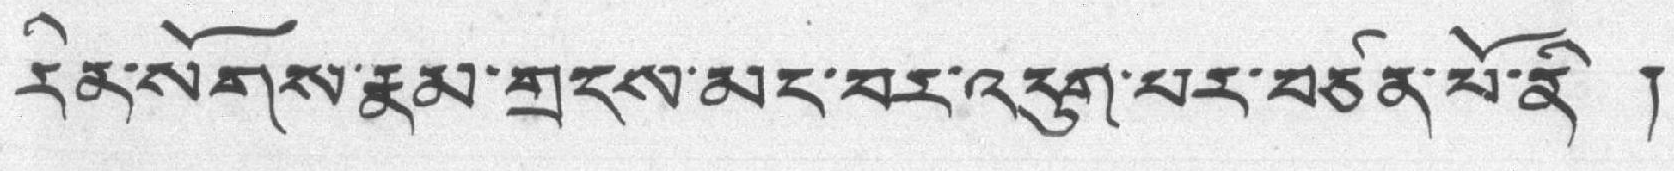རིན་སོགས་རྣམ་གྲངས་མང་བར་འདུག་པར་བཙན་པོ་ནི །
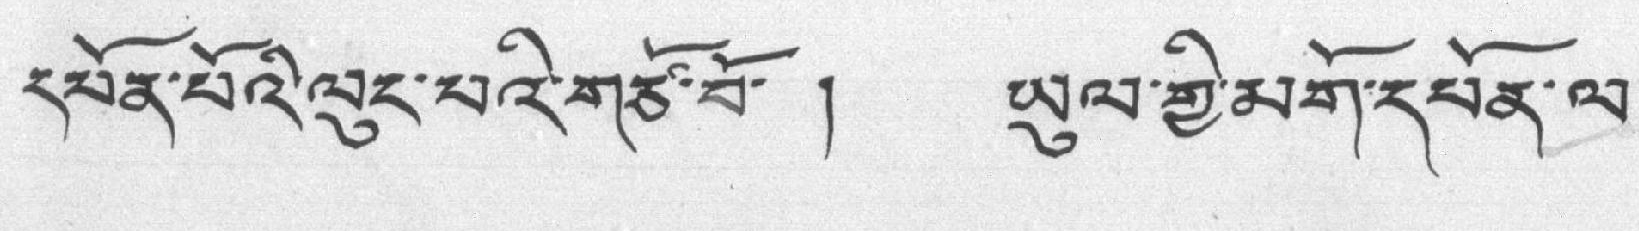དཔོན་པོའི་ལུང་པའི་གཙོ་བོ་ ། ཡུལ་གྱི་མིག་དཔོན་ལ་
